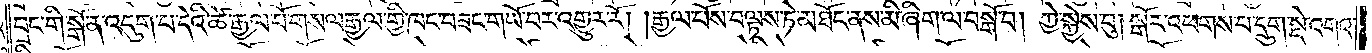བྲང་གི་སྒོ་ན་འདུག་པ་དེའི་ཚེ་རྒྱལ་པོ་གསལ་རྒྱལ་གྱི་ཁང་བཟང་གཡོ་བར་འགྱུར་རོ། །རྒྱལ་པོས་བལྟས་ཏེ་མཐོང་ནས་མི་ཞིག་ལ་བསྒོ་བ། ཀྱེ་སྐྱེས་བུ། སྒོར་འཕགས་པ་དྲུག་སྡེ་འགའ་
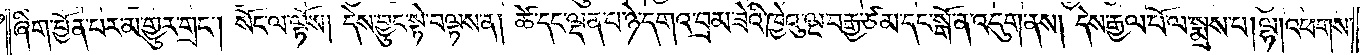ཞིག་བྱོན་པར་མ་གྱུར་གྲང༌། སོང་ལ་ལྟོས། དེས་བྱུང་སྟེ་བལྟས་ན། ཚེ་དང་ལྡན་པ་ཉེ་དགའ་བྲམ་ཟེའི་ཁྱེའུ་ལྔ་བརྒྱ་ཙམ་དང་སྒོ་ན་འདུག་ནས། དེས་རྒྱལ་པོ་ལ་སྨྲས་པ། ལྷ། འཕགས་
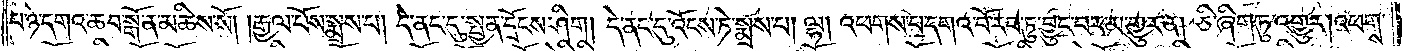པ་ཉེ་དགའ་ཆབ་སྒོ་ན་མཆིས་སོ། །རྒྱལ་པོས་སྨྲས་པ། དེ་ནང་དུ་སྤྱན་དྲོངས་ཤིག། དེ་ནང་དུ་འོངས་ཏེ་སྨྲས་པ། ལྷ། འཕགས་པ་དགའ་པོ་རབ་ཏུ་བྱུང་བར་མ་གྱུར་ན། ཅི་ཞིག་ཏུ་འགྱུར། འཕགས་
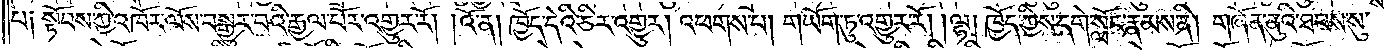པ༑ སྟོབས་ཀྱི་འཁོར་ལོས་བསྒྱུར་བའི་རྒྱལ་པོར་འགྱུར་རོ། །འོ་ན། ཁྱོད་དེའི་ཅིར་འགྱུར། འཕགས་པ། གཡོག་ཏུ་འགྱུར་རོ། །ལྷ། ཁྱོད་ཀྱིས་དགེ་སློང་རྣམས་ནི། གཞོན་ནུའི་ཐབས་སུ་
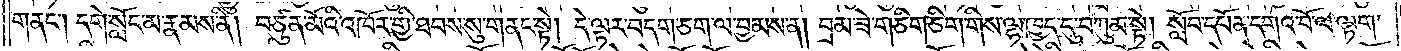གནང༌། དགེ་སློང་མ་རྣམས་ནི། བཙུན་མོའི་འཁོར་གྱི་ཐབས་སུ་གནང་སྟེ། དེ་ལྟར་བདག་ཅག་ལ་བྱམས་ན། བྲམ་ཟེ་གཅིག་ཅིག་གིས་ལྷ་ཁྱད་དུ་བཀུམ་སྟེ། སློབ་དཔོན་དགའ་བོ་ལ་ལྟག་
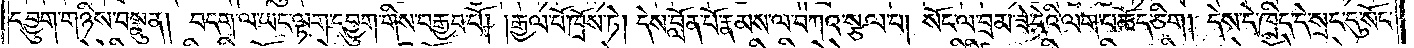དབྱུག་གཉིས་བསྣུན། བདག་ལ་ཡང་ལྟག་དབྱུག་གིས་བརྒྱབ་པོ། །རྒྱལ་པོ་ཁྲོས་ཏེ། དེས་བློན་པོ་རྣམས་ལ་བཀའ་སྩལ་པ། སོང་ལ་བྲམ་ཟེ་དེའི་ལག་པ་ཆོད་ཅིག། དེས་དེ་ཁྲིད་དེ་སྲང་དུ་སོང་
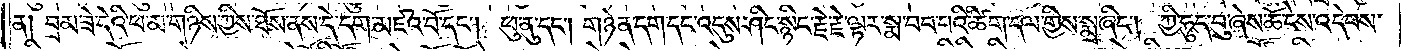ན། བྲམ་ཟེ་དེའི་ཕ་མ་གཉིས་ཀྱིས་ཐོས་ནས་དེ་དག་མཛའ་བོ་དང༌། ཕུ་ནུ་དང༌། གཉེན་དག་དང་འདུས་ཤིང་སྙིང་རྗེ་རྗེ་ལྟར་སྨ་བབ་པའི་ཚིག་དལ་གྱིས་སྨྲ་ཞིང༌། ཀྱི་ཧུད་བུ་ཞེས་ཆོ་ངེས་འདེབས་
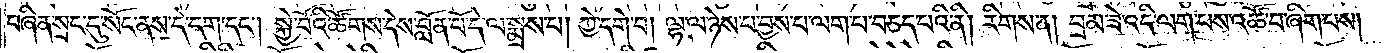བཞིན་སྲང་དུ་སོང་ནས་དེ་དག་དང༌། སྐྱེ་བོའི་ཚོགས་དེས་བློན་པོ་དེ་ལ་སྨྲས་པ། ཀྱེ་དགེ་བ། ལྷ་ལ་ཉེས་པ་བྱས་པ་ལག་པ་བཅད་པའི་ནི། རིགས་ན། བྲམ་ཟེ་འདི་ལག་པས་འཚོ་བ་ཞིག་པས།
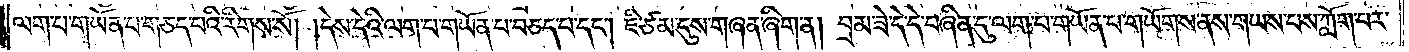ལག་པ་གཡོན་པ་གཅད་པའི་རིགས་སོ། །དེས་དེའི་ལག་པ་གཡོན་པ་བཅད་པ་དང༌། ཇི་ཙམ་དུས་གཞན་ཞིག་ན། བྲམ་ཟེ་དེ་དེ་བཞིན་དུ་ལག་པ་གཡོན་པ་གཡོགས་ནས་གཡས་པས་ཀློག་པར་
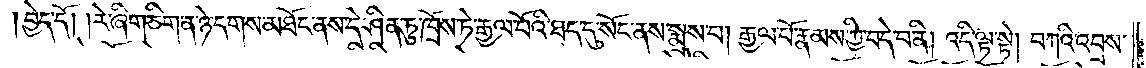བྱེད་དོ། །རེ་ཞིག་ཅིག་ན་ཉེ་དགས་མཐོང་ནས་དེ་ཤིན་ཏུ་ཁྲོས་ཏེ་རྒྱལ་པོའི་ཐད་དུ་སོང་ནས་སྨྲས་པ། རྒྱལ་པོ་རྣམས་ཀྱི་བདེ་བ་ནི། འདི་ལྟ་སྟེ། བཀའི་འབྲས་
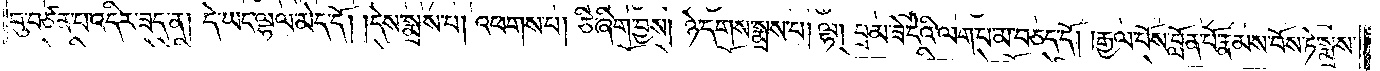བུ་བཙན་པ་འདིར་ཟད་ན། དེ་ཡང་ལྷ་ལ་མེད་དོ། །དེས་སྨྲས་པ། འཕགས་པ། ཅི་ཞིག་བྱས། ཉེ་དགས་སྨྲས་པ། ལྷ། བྲམ་ཟེ་དེའི་ལག་པ་མ་བཅད་དོ། །རྒྱལ་པོས་བློན་པོ་རྣམས་བོས་ཏེ་སྨྲས་
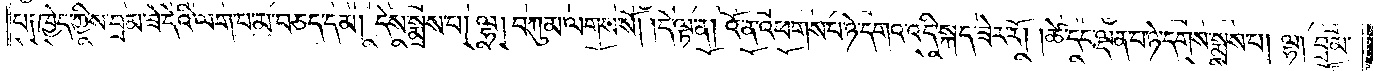པ༑ ཁྱེད་ཀྱིས་བྲམ་ཟེ་དེའི་ལག་པ་མ་བཅད་དམ། དེས་སྨྲས་པ། ལྷ། བཀུམ་ལགས་སོ། །དེ་ལྟ་ན། འོ་ན་འཕགས་པ་ཉེ་དགའ་འདི་སྐད་ཟེར་རོ། །ཚེ་དང་ལྡན་པ་ཉེ་དགས་སྨྲས་པ། ལྷ། བྲམ་
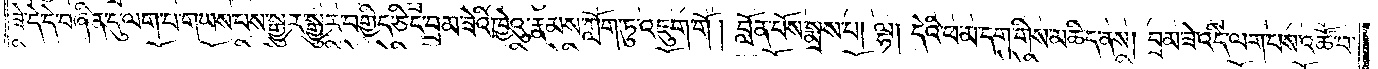ཟེ་དེ་དེ་བཞིན་དུ་ལག་པ་གཡས་པས་སྒྱུར་སྒྱུར་བགྱིད་ཅིང་བྲམ་ཟེའི་ཁྱེའུ་རྣམས་ཀློག་ཏུ་འཇུག་གོ། བློན་པོས་སྨྲས་པ། ལྷ། དེའི་ཕ་མ་དག་གིས་མཆིད་ནས། བྲམ་ཟེ་འདི་ལག་པས་འཚོ་བ་
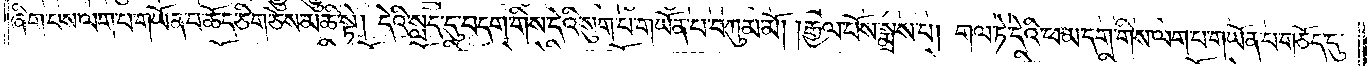ཞིག་པས་ལག་པ་གཡོན་པ་ཆོད་ཅིག་ཅེས་མཆི་སྟེ། དེའི་སླད་དུ་བདག་གིས་དེའི་སུག་པ་གཡོན་པ་བཀུམ་མོ། །རྒྱལ་པོས་སྨྲས་པ། གལ་ཏེ་དེའི་ཕ་མ་དག་གིས་ལག་པ་གཡོན་པ་གཅོད་དུ་
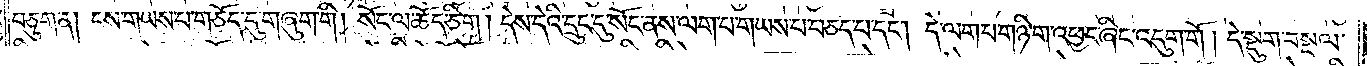བཅུག་ན། ངས་གཡས་པ་གཅོད་དུ་གཞུག་གི། སོང་ལ་ཆོད་ཅིག། དེས་དེའི་དྲུང་དུ་སོང་ནས་ལག་པ་གཡས་པ་བཅད་པ་དང༌། དེ་ལག་པ་གཉི་ག་འཕྱང་ཞིང་འདུག་གོ། དེ་སྡུག་བསྔལ་
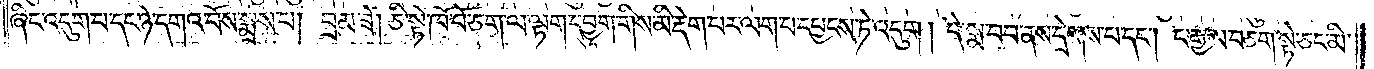ཞིང་འདུག་པ་དང་ཉེ་དགའ་བོས་སྨྲས་པ། བྲམ་ཟེ། ཅི་སྟེ་ཁོ་བོ་ཅག་ལ་ལྟག་དབྱུག་གིས་མི་རྡེག་པར་ལག་པ་དཔྱངས་ཏེ་འདུག། དེ་སྨ་བབ་ནས་དྲེགས་པ་དང༌། ང་རྒྱལ་བཅག་སྟེ་ཅང་མི་
